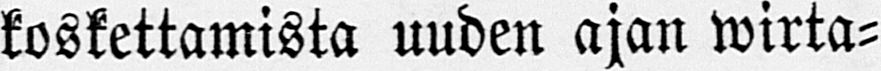koskettamista uuden ajan wirta-
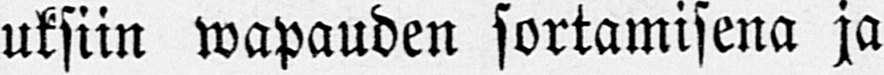uksiin wapauden sortamisena ja
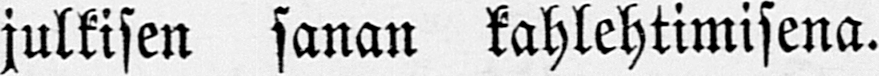julkisen sanan kahlehtimisena.
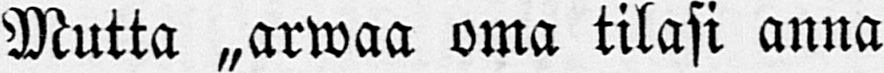Mutta „arwaa oma tilasi anna
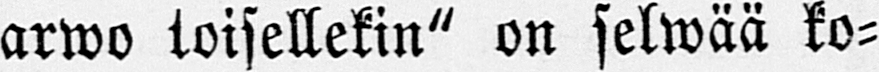arwo toisellekin" on selwää ko-
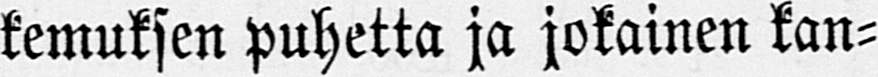kemuksen puhetta ja jokainen kan-
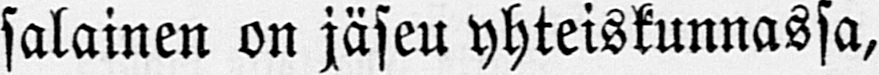salainen on jäseu yhteiskunnassa,
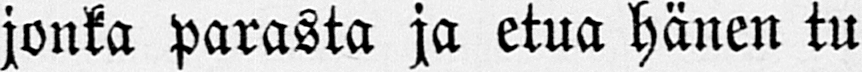jonka parasta ja etua hänen tu-
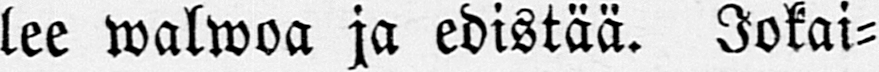lee walwoa ja edistää. Jokai-
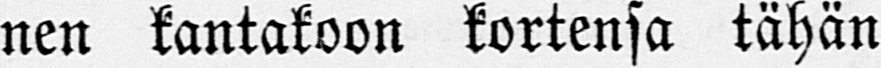nen kantakoon kortensa tähän
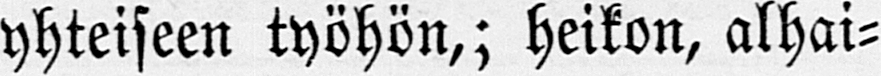yhteiseen työhön,; heikon, alhai-
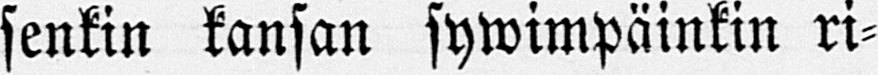sonkin kansan sywimpäinkin ri-
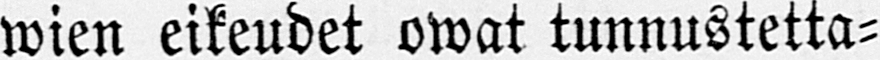wien eikeudet owat tunnustetta-
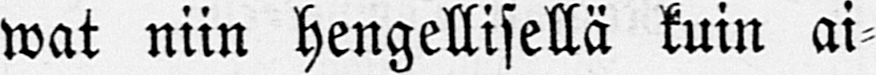wat niin hengellisellä kuin ai-
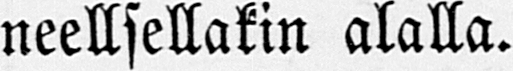neellsellakin alalla.
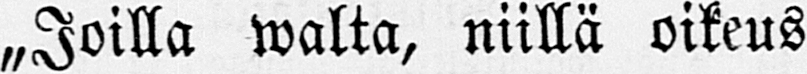„Joilla walta, niillä oikeus
